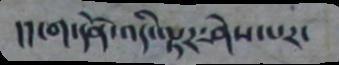།།ངག་དོན་འདི་ལྟར་ཤེས་པར་
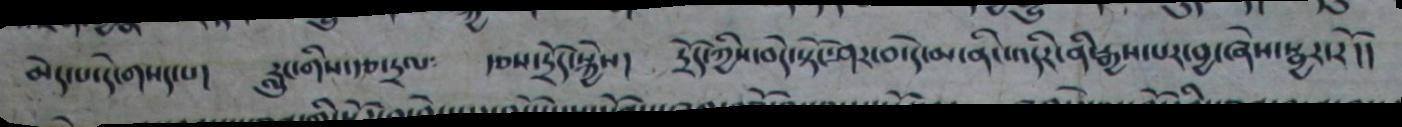མེད་པ་དེ་གསད་པ། རླུང་གིས་རྩ་དྲལ༴ རྩས་དྲོད་སྐྱེས། དྲོད་ཀྱིས་བདེ་སྟོང་ཤར་བ་དེ་མ་ནིང་འདིར་ནི་རྒྱས་པར་བྱ་ཞེས་སྦྱར་རོ།།
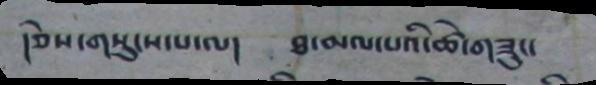།ཅེས་གསུངས་པ་ལ། ཐ་མལ་པའི་ཚེ་གཟུང་
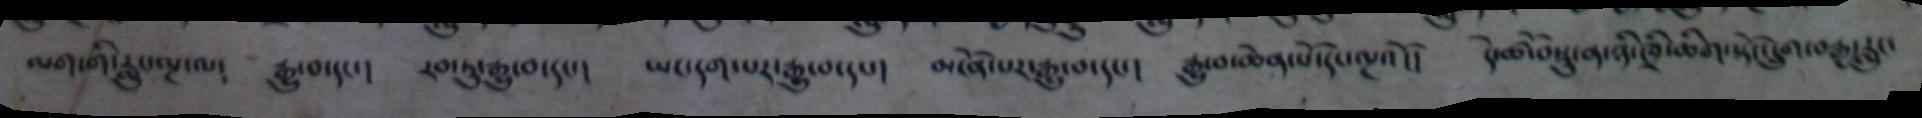ལག་གི་རླུང་ལྔ་ལ༴ རྒྱུ་བ་དང་། རབ་ཏུ་རྒྱུ་བ་དང་། ཡང་དག་པར་རྒྱུ་བ་དང་། མངོན་པར་རྒྱུ་བ་དང་། རྒྱུ་བ་ཆེན་པོ་དང་ལྔའོ།། དེ་ཚོ་བསྡུ་ན་ཉི་ཁྲི་ཆིག་སྟོང་དྲུག་བརྒྱ་རླུང་
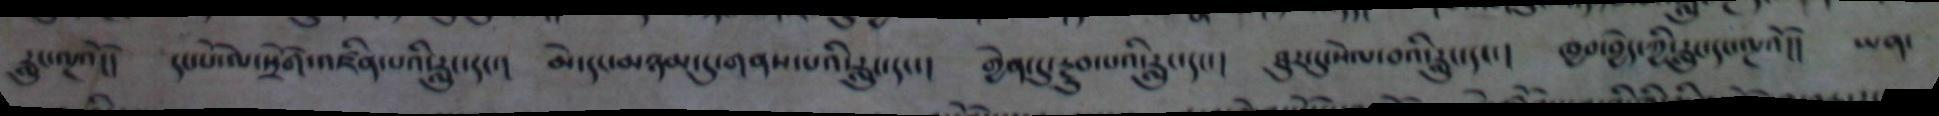རླུང་ལྔའོ།། དང་པོ་ལ་སྲོག་འཛིན་པའི་རླུང་དང་། མེ་དང་མཉམ་དུ་གནས་པའི་རླུང་དང་། གྱེན་དུ་རྔུབ་པའི་རླུང་དང་། ཐུར་དུ་སེལ་བའི་རླུང་དང་། ཁྱབ་བྱེད་ཀྱི་རླུང་དང་ལྔའོ།། ཡན་
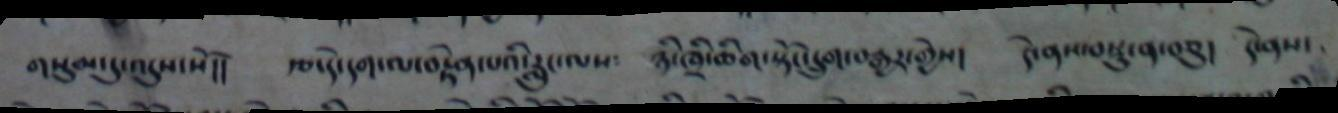གསུམ་དུ་འདུས་སོ།། རྩ་དེ་དག་ལ་བརྟེན་པའི་རླུང་ལས༴ ཉི་ཁྲི་ཆིག་སྟོང་དྲུག་བརྒྱར་གྱེས། དེ་ནས་བསྡུ་ན་བཅུ། དེ་ནས་
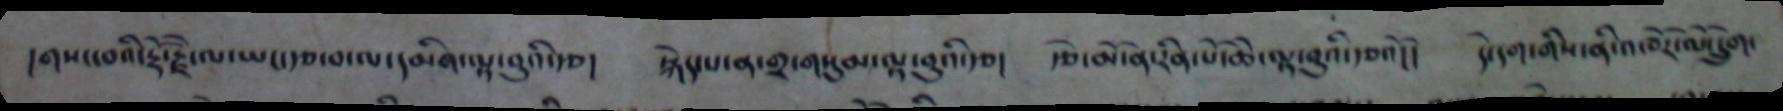།གསང་བའི་རྡོ་རྗེ་ལ་ཡང་རྩ་བ་ལ་དམིག་ལྟ་བུའི་རྩ། སྐེད་པ་ན་གྲ་གསུམ་ལྟ་བུའི་རྩ། རྩེ་མོ་ན་རིན་པོ་ཆེ་ལྟ་བུའི་རྩའོ།། དེ་དག་གིས་ནི་འཁོར་ལོ་དྲུག་
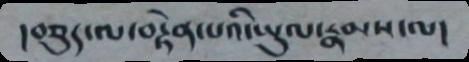།བཅུད་ལ་བརྟེན་པའི་ཡུལ་རྣམས་ལ།
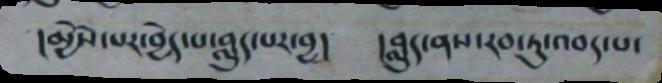།མྱོས་པར་བྱེད་པ་བླུད་པར་བྱ། །བླུད་ནས་རབ་ཏུ་འབད་པ་
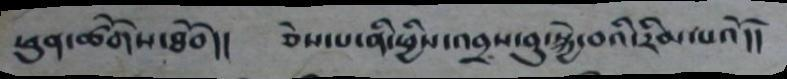ཕུན་ཚོགས་ཐོབ།། ཅེས་པ་ནི་ཕྱིས་འབྲས་བུ་སྐྱེ་བའི་རིམ་པའོ།།
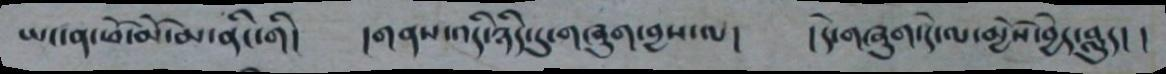ཡང་ན་ཕོ་མོ་མ་ནིང་གི། །གནས་འདི་ཉིད་དུ་གཞུག་བྱས་ལ། །དེ་གཞུག་དེ་ལ་མྱོས་བྱེད་བླུད། །
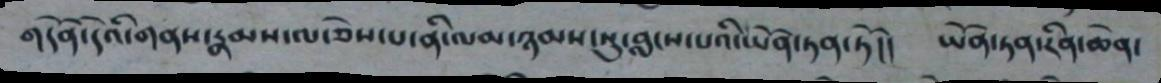གདོན་དེའི་གནས་རྣམས་ལ་ཅེས་པ་ནི་ལམ་ཉམས་སུ་བླངས་པའི་ཡོན་ཏན་ཏོ།། ཡོན་ཏན་རིན་ཆེན་
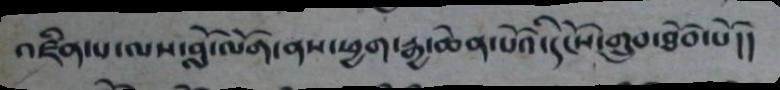འཛིན་པ་ལས་བློ་ལོག་ནས་ཕྱག་རྒྱ་ཆེན་པོའི་དངོས་གྲུབ་ཐོབ་པོ།།
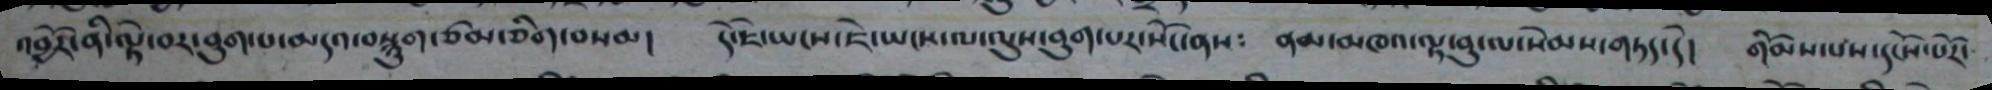འབྱོར་ནི་ལྟེ་བར་བུག་པ་མདའ་བསྙུག་ཙམ་ཅིག་བསམ། དེ་ཇེ་ཡང་ཇེ་ཡངས་ལ་ལུས་བུག་པར་སོང་ནས༴་ནམ་མཁའ་ལྟ་བུ་སེམས་གཏད་དེ། གོམས་པས་དངོས་པོར་
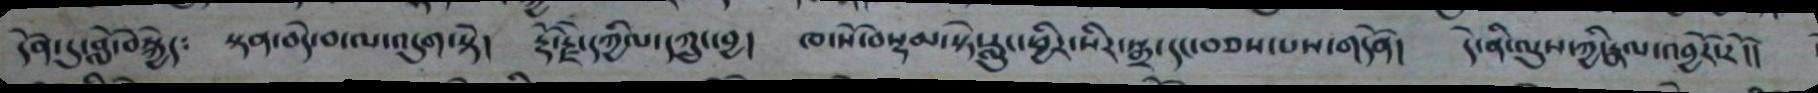དོན་དུ་བློ་བསྐྱེད༴ སྟན་བདེ་བ་ལ་འདུག་སྟེ། རྡོ་རྗེ་དཀྱིལ་དཀྲུང་བྱ། ཁ་སོ་བསྡམ་སྟེ་རླུང་ཕྱིར་སིར་སྒྲ་དང་བཅས་པས་གདོན། དེ་ནི་ལུས་ཀྱི་རྣལ་འབྱོར་རོ།།
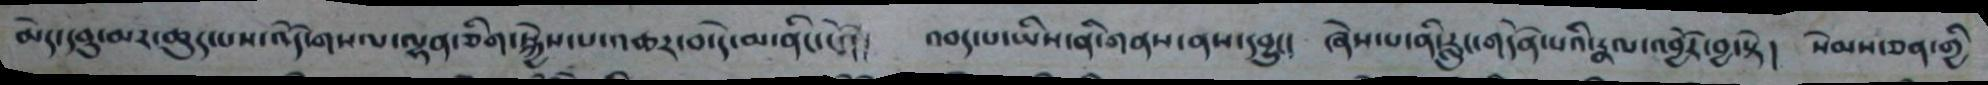མེད་དབུ་མར་ཆུད་པས་འོད་གསལ་ལྷན་ཅིག་སྐྱེས་པ་འཆར་བ་དེ་མ་ནིང་ངོ་། འབད་པ་ཡིས་ནི་གནས་ནས་དབྱུང། ཞེས་པ་ནི་རླུང་གདོན་པའི་རྣལ་འབྱོར་བྱ་སྟེ། སེམས་ཅན་གྱི
